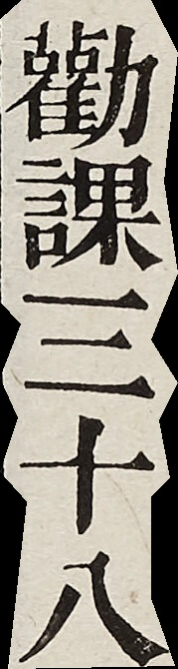勸課三十八
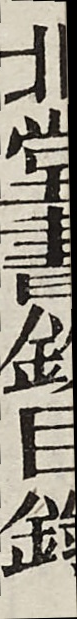北堂書鈔目錄
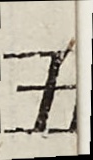五
